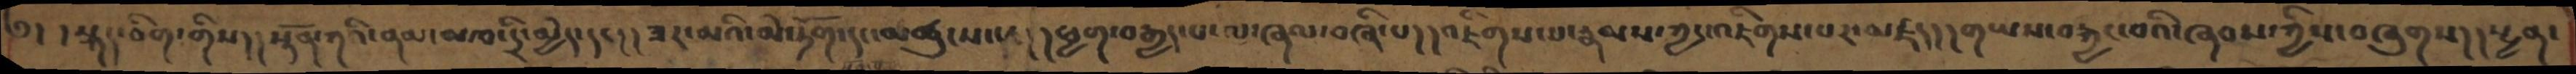༅། །སྐད་ཅིག་གིས།།སྟོན་ཀའི་ནམ་མཁ་དྲི་མྱེད་དང།།ཟར་མའི་མེ་ཏོག་དང་མཚུང་པ།།ཕྱག་བརྒྱད་པ་ལ་ཞལ་བཞི་པ།།འཇིགས་པ་རྣམས་ཀྱང་འཇིགས་པར་མཛད།།གཡས་བརྐྱང་བའི་ཞབས་ཀྱིས་བཞུགས།།སྤྱན་
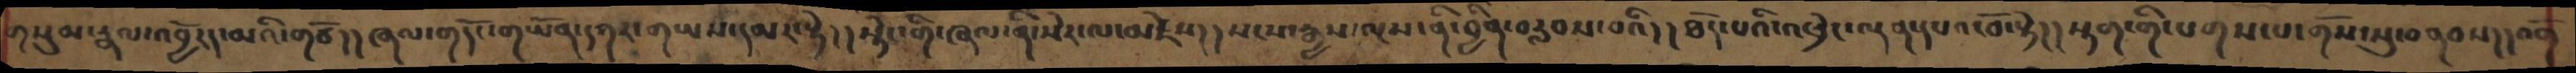གསུམ་རྣལ་འབྱོརད་མའི་གཙོ།། ཞལ་གདོང་གཡོན་དཀར་གཡས་དམར་སྟེ།།སྟེང་གི་ཞལ་ནི་སེར་ལ་མཛེས།།སངས་རྒྱས་ལྔས་ནི་བྱིན་བརླབས་པའི།།ཐོད་པའི་འཕྲེང་ལྡན་དཔའ་བོ་སྟེ།། སྟག་གི་པགས་པ་གོས་སུ་བནབས།།འགོ
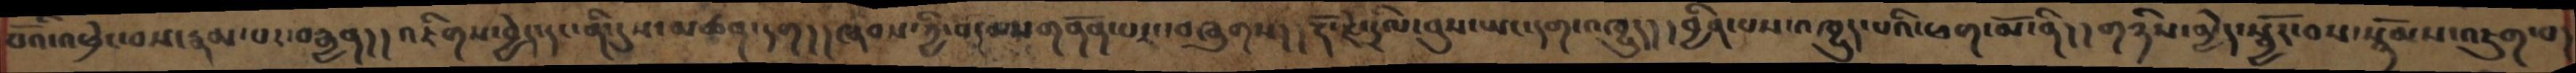བའོ་འཕྲེང་བས་རྣམ་པར་བརྒྱན།།འཇིགས་བྱེད་དང་ནི་དུས་མཚན་དག།།ཞབས་ཀྱི་བདམསགནོན་པར་བཞུགས།།རྡོ་རྗེ་དྲིལ་བུས་ཡང་དག་འཁྱུད།།བྱིན་པས་འཁྱུད་པའི་ཕག་མོ་ནི།།གཉིས་མྱེད་སྦྱོར་བས་སྙོམས་འཇུག་པ་
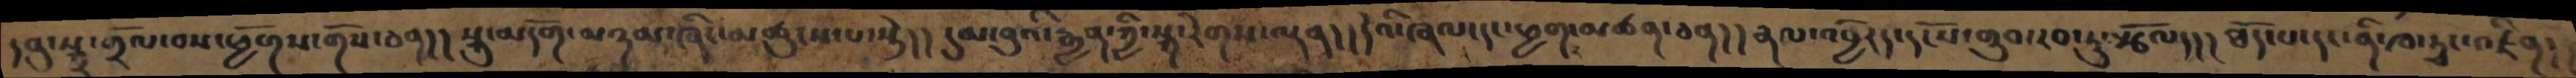དབུ་སྐྲ་གྲོལ་བས་ཕྱོགས་གོས་ཅན། །སྐུ་མདོག་མཉམ་ཞིང་མཚུངས་པ་སྟེ། །དུམ་བུའི་རྒྱན་ཀྱི་སྐ་རེགས་ལྡན།།དེའི་ཞལ་དང་ཕྱག་མཚན་ཅན།།རྣལ་འབྱོརད་དངོས་གྲུབ་རབ་ཏུ་སྩོལད།། ཐོད་པ་དང་ནི་ཁ་ཊྭང་འཛིན།
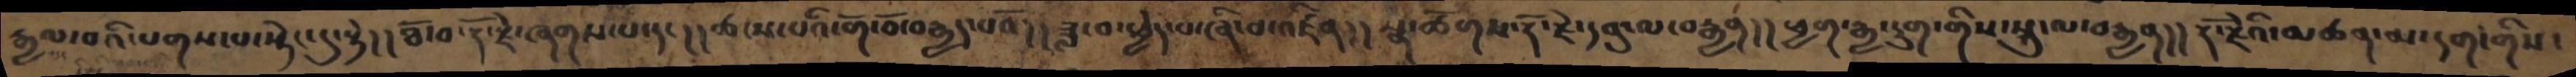རྒྱལ་བའི་པགས་པ་སྟེང་དུ་སྟེ། །ཐོ་བ་རྡོ་རྗེ་ཞགས་པ་དང། །ཚངས་པའི་གོ་བོ་བརྒྱད་པའོ། །ཟླ་བ་ཕྱེད་པ་ཞི་བ་འཛིན། །སྣ་ཚོགས་རྡོ་རྗེ་དབུ་ལ་བརྒྱན། །ཕྱག་རྒྱ་དྲུག་གིས་སྐུ་ལ་བརྒྱན། །རྡོ་རྗེའི་མཚན་མ་དག་གིས་
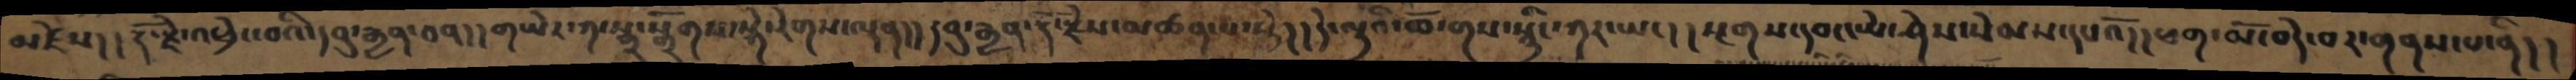མཛེས། །རྡོ་རྗེ་འཕྲེང་བའི་དབུ་རྒྱན་ཅན། །གཡེར་ཀ་སྒྲ་སྒྲོགས་སྐེ་རེགས་ལྡན། །དབུ་རྒྱན་རྡོ་རྗེ་མཚན་པ་སྟེ། །དེ་ལྟའི་ཆོ་གས་སྙིང་ཀར་ཡང། །སྔགས་དབང་ཡེ་ཤེས་སེམས་དཔའོ། །ཕག་མོ་བདེ་བར་གནས་པ་ནི། །
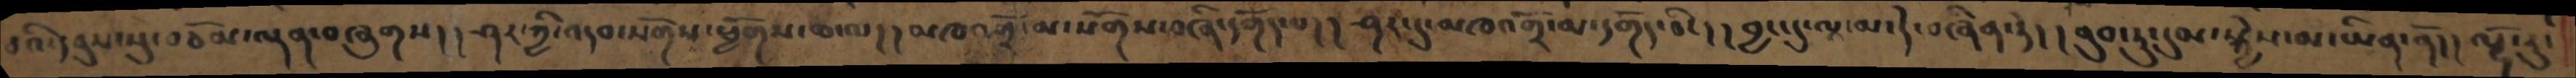བའི་དབུས་སུ་བཅོམ་ལྡན་བཞུགས།།ཤར་ཀྱི་འདབ་སོགས་ཕྱོགས་ཆ་ལ།།མཁའགྲོ་མ་སོགས་བཞི་དགོད་པ།།ཤར་དུ་མཁའགྲོ་མ་དགོད་ཅིང།། བྱང་དུ་ལཱ་མ་དེ་བཞིན་ཏེ།།ནུབ་ཏུ་དུམ་སྐྱེས་མ་ཡིན་ནོ།། ལྷོ་རུ་
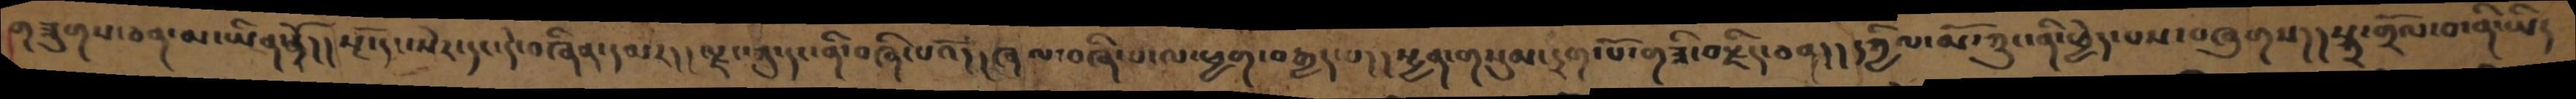གཟུགས་ཅན་མ་ཡིན་ནོ།།སྔོ་དང་སེར་དང་དེ་བཞིན་དམར།།ལྗང་ཀུ་དང་ནི་བཞི་པའོ།།ཞལ་བཞི་པ་ལ་ཕྱག་བརྒྱད་པ།།སྤྱན་གསུམ་དྲག་པོ་གཟི་བརྗིད་ཅན།།དཀྱིལ་མོ་ཀྲུང་ནི་ཕྱེད་པས་བཞུགས།།སྐྲ་གྲོལ་བ་ནི་ཡིད
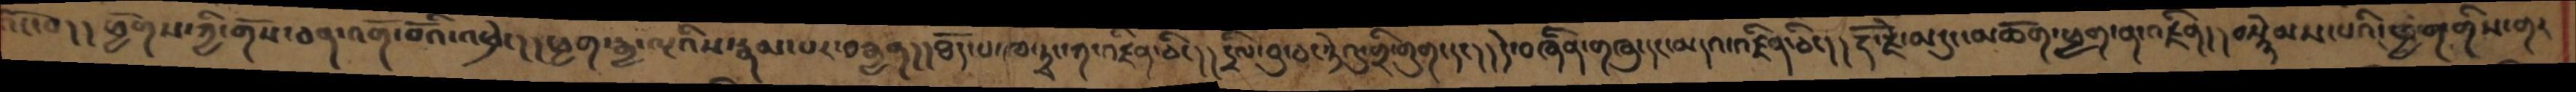འོང་བ།།ཕྱོགས་ཀྱི་གོས་ཅན་འགོ་བོའི་འཕྲེང།།ཕྱག་རྒྱ་ལྔའིས་རྣམ་པར་བརྒྱན།།ཐོད་པ་ཁ་ཊྭང་ག་འཛིན་ཅིང།།དྲིལ་བུ་ཅང་ཏེའུ་གྲི་གུག་དང།།དེ་བཞིན་གཞུ་དང་མདའ་འཛིན་ཅིང།།རྡོ་རྗེ་མདུང་མཆོག་ཕྱག་ན་འཛིན།།བསྙེམས་པའི་ཕྱག་གིས་གར
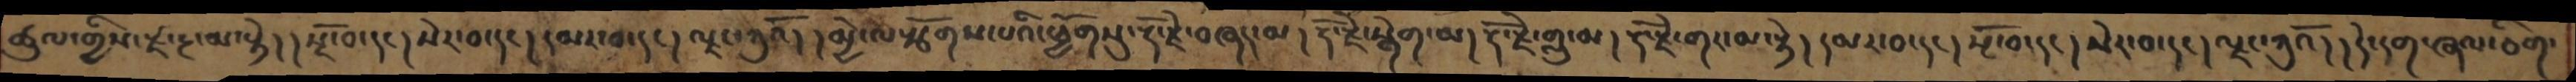ཚུལ་གྱིས་རྫ་རྔ་མ་སྟེ།། སྔོ་བ་དང། སེར་བ་དང་། དམར་བ་དང། ལྗང་ཀུའོ། །མྱེ་ལ་སོགས་པའི་ཕྱོགསུ་རྡོ་རྗེ་བཞད་མ། རྡོ་རྗེ་སྒེག་མ། རྡོ་རྗེ་གླུ་མ། རྡོ་རྗེ་གར་མ་སྟེ། དམར་བ་དང། སྔོ་བ་དང། སེར་བ་དང། ལྗང་ཀུའོ། །དེ་དག་ཞལ་ཅིག་
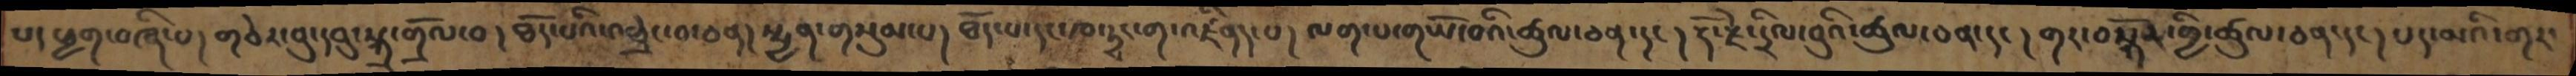པ། ཕྱག་བཞི་པ། གཅེར་བུ་དབུ་སྐྲ་གྲོལ་བ། ཐོད་པའི་འཕྲེང་བ་ཅན། སྤྱན་གསུམ་པ། ཐོད་པ་དང་ཁ་ཊྭང་ག་འཛིན་པ། ལག་པ་གཡོ་བའི་ཚུལ་ཅན་དང། རྡོ་རྗེ་དྲིལ་བུའི་ཚུལ་ཅན་དང། གར་བསྐོར་གྱི་ཚུལ་ཅན་དང། པད་མའི་གར་
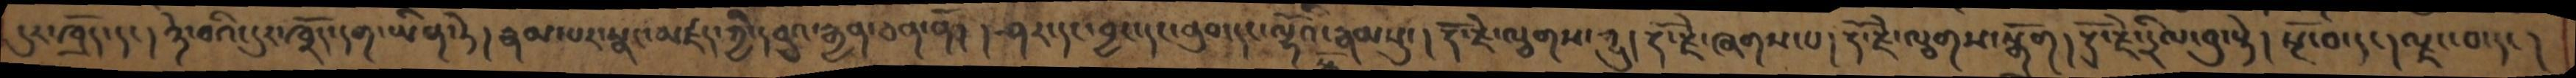དུར་ཁྲོད་དང། ཉེ་བའི་དུར་ཁྲོད་དག་ཡིན་ཏེ། རྣམ་པར་སྣང་མཛད་ཀྱི་དབུའ་རྒྱན་ཅན་ནོ། ཤར་དང་བྱང་དང་ནུབ་དང་ལྷོའི་རྣམསུ་། རྡོ་རྗེ་ལྕགས་ཀྱུ། རྡོ་རྗེ་ཞགས་པ། རྡོ་རྗེ་ལྕགས་སྒྲོག། རྡོ་རྗེ་དྲིལ་བུ་སྟེ། སྔོ་བ་དང། ལྗང་བ་དང།
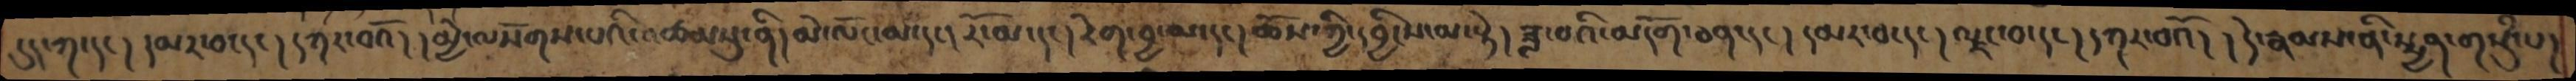དུང་ཀ་དང། །དམར་བ་དང།།དཀར་བའོ། །མྱེ་ལསོགས་པའི་འཚམསུ་ནི། མེ་ལོང་མ་དང། རོ་མ་དང། རེག་བྱ་མ་དང། ཆོས་ཀྱི་དབྱིངས་མ་སྟེ། ཟླ་བའི་མདོག་ཅན་དང། དམར་བ་དང། ལྗང་བ་དང། དཀར་བའོ།། དེ་རྣམས་ནི་སྤྱན་གསུཾ་པ།
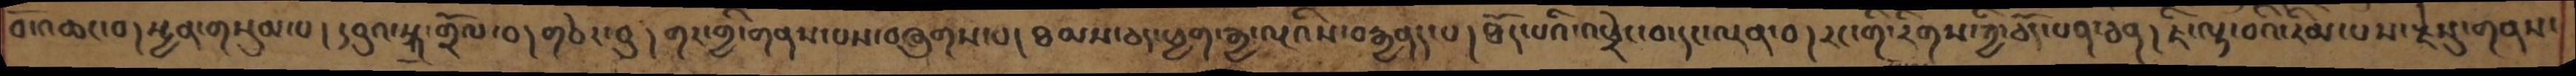བོ་འཆང་བ། སྤྱན་གསུམ་པ། དབུའ་སྐྲ་གྲོལ་བ། གཅེར་བུ། གར་གྱི་གནས་པས་བཞུགས་པ། ཐམས་ཅད་ཕྱག་རྒྱ་ལྔའིས་བརྒྱནད་པ། ཐོད་པའི་འཕྲེང་བ་དང་ལྡན་བ། རང་གི་རིགས་ཀྱི་ཅོད་པན་ཅན། ཇི་ལྟ་བའི་རིམ་པས་རྗེསུ་གནས་
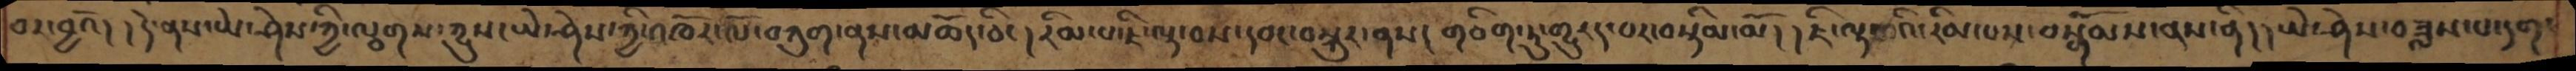བར་བྱའོ། །དེ་ནས་ཡེ་ཤེས་ཀྱི་ལྕགས་ཀྱུས་ཡེ་ཤེས་ཀྱི་འཁོར་ལོ་བཀུག་ནས་མཆོད་ཅིང། རིམ་པ་ཇི་ལྟ་བས་དབང་བསྐུར་ནས། གཅིག་ཏུ་གྱུརད་བར་བསྟིམ་མོ། །ཇི་ལྟ་བའི་རིམ་པས་བསྒོམས་ནས་ནི། །ཡེ་ཤེས་བཟླས་པ་དག་
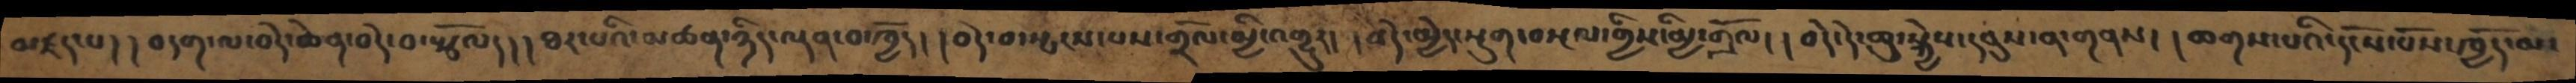མཛད་པ། །བདག་ལ་བདེ་ཆེན་བདེ་བ་སྩོལད། །ཐར་པའི་མཚན་ཉིད་ལྡན་པ་ཁྱོད། །བདེ་བ་སྤངས་པས་གྲོལ་མྱི་འགྱུར། །བདེ་མྱེད་སྡུག་བསྔལ་གྱིས་མྱི་གྲོལ། །བདེ་དེ་ཆུ་སྐྱེས་དབུས་ན་གནས། །ཆགས་པའི་དངོས་པོས་ཁྱོད་མ་
